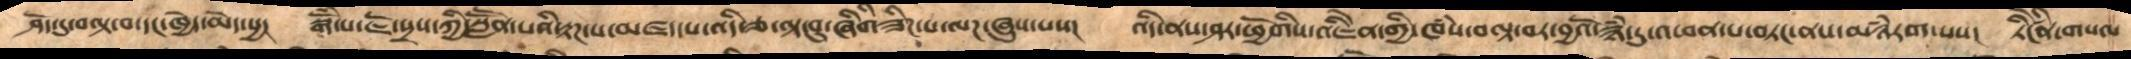ཤོད་དུ་ལྟ་བ་དང་ཁྱེད་མེད་སྱ།   སྒོཾ་པ་ཇོ་སྲས་ཀྱི་སླཽན་པའི་རྟཌ་པ་མཛད་པ་འདི་ཅ་ལྟ་བུ་ཞིགིཟིཌ་པ་ལཌ་ཞུས་པས།  འདི་ནས་ཤར་ཕྱོགིས་འཇིེན་གྱི་ཁཾས་བལྟ་བར་བྱའོ་སྙཾ་དུ་འཕན་པ་བཏང་ནས་མཉཾརག་པས།   ཏིངེཛིན་གསལ
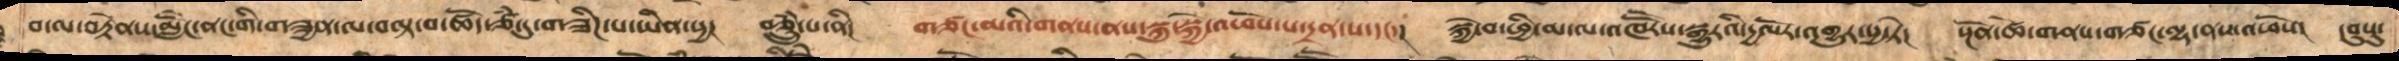བ་ལ་བརྟེནས་མློེང་ནང་གི་གཟནྱ་ལ་བལྟ་བ་ཚོད་ཙཾ་དུ་གཟིཌ་པ་ཡིན་སྱ།  བཅྲུཾ་པ་ནི།  གཙང་མའི་གནས་ནས་སྐུ་སྐྱེ་འཕོས་པ་དྲན་པ་དང་།   སྐྱེ་བ་ཕྱི་མ་ལ་འཁཽརས་སྒྱུརའི་དྱལོར་འགྱུར་སྱ་ཏེ།   སྔོན་ཚེ་གནས་གཙང་ལྷ་ནས་འཕོས།   དབུསུ་
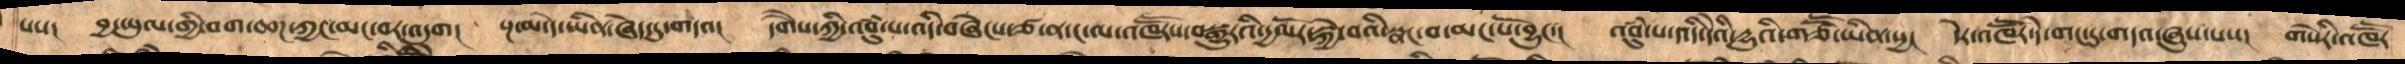པས།  བྱ་ཡུལ་གྱི་བག་ཆཌ་ཀྱང་མང་བར་འདུག།   སྔ་མ་དེ་ཡིན་ཞེད་དུ་གདའ།   དགཻས་ཀྱི་འབུཾ་པ་འདི་བཞེངས་ཙ་ན་ང་ལ་འཁཽརས་བསྒྱུརའི་དྱལོར་སྐྱེ་བའི་སྣང་བ་མང་པོ་བྱུང་།   འབུཾ་པ་འདི་དེའི་དྱུའི་གཙཽ་ཡིན་སྱ།   དེར་འཁཽར་དེ་གང་དུ་གདའ་ཞུས་པས།   གསེརི་འཁཽར
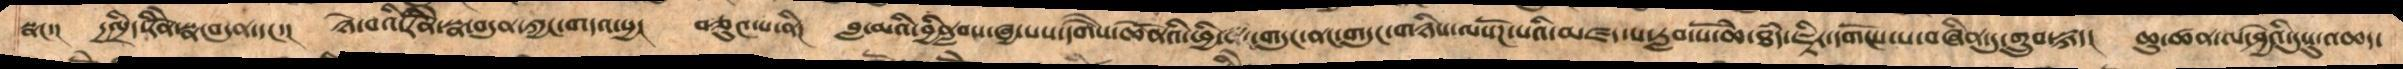སྣང་།   དྱལྲིད་རིནོེ་སྣ་བདུན་དང་།     ཉེ་བའི་རིནོེ་སྣ་བདུན་ཀྱང་གདའ་སྱ།   བཅུ༤་པ་ནི།    བླ་མའི་བྱིནབླས་ཞྱ་པས་དགཻས་ཆེནོའི་ཕྱི་གདུང་ནང་གདུང་གཉིས་ལསོཌ་པའི་མཛད་པ་རླབ་པོ་ཆེ་ཐཾད་ཇྟིར་དགོངས་པ་བཞིན་དུ་གྲུབ་སྐད།  ཆུ་ཚན་ལ་ཤྱེའི་དུསུ་འཆད་
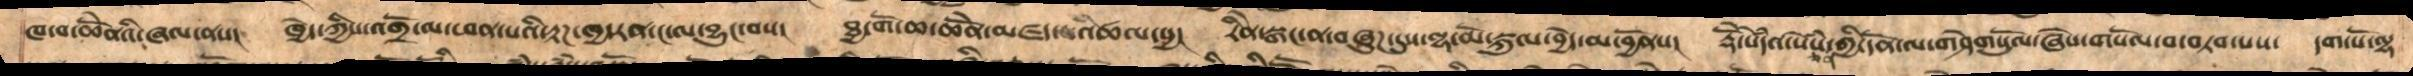ཁ་བ་ཆེནོའི་ཞལ་ནས། ཁྱེད་ཀྱིས་འགྲོ་ལ་ཕན་པའི་རྟཌ་ཁྱདརན་ང་ལ་བྱུང་བས།  ཐྱ་གོ་ཆ་ཆེནོ་མཛད་འཚལ་སྱ། རིེན་སྒང་ན་བཞུཌ་དུས་ལྷ་མོ་སྐུལ་བྱེད་མ་བྱོནས།  རྡོེ་སེཾདའ་སེཾས་ཅན་གྱི་དོན་ལ་གཤེགསོུལ་ཞེས་གསོལ་བ་བཏབ་པས། དག་པོ་ལྷ་
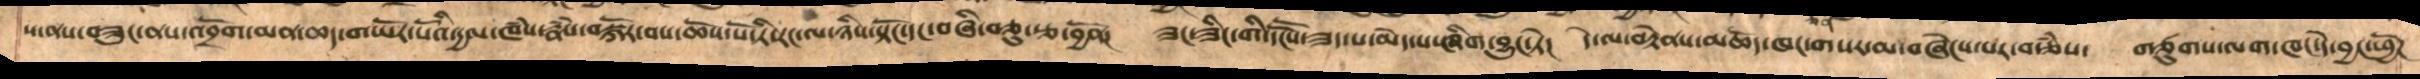ས་ནས་བཟུང་ནས་འབྲོག་མན་ཆད་གཡོར་པོའི་དྱལ་ཁཾས་རྣཾས་བསྐོར་བས་ཆོས་པོ་ཏི་རང་ལ་ཉིས་སྟོང་དང་བཞི་བཅུ་རྩ་བྱོན།   ཟང་ཟིང་གི་དངཽས་ཟད་པ་མེད་པ་ཞིག་བྱུང་ཏེ།   དེ་ལ་བརྟེནས་མཆོད་ཁང་གསར་མ་བཞེངས་བར་བརྩཾས།   གཙུགས་ལག་ཁང་དེ་བྱང་ཕྱོཌ
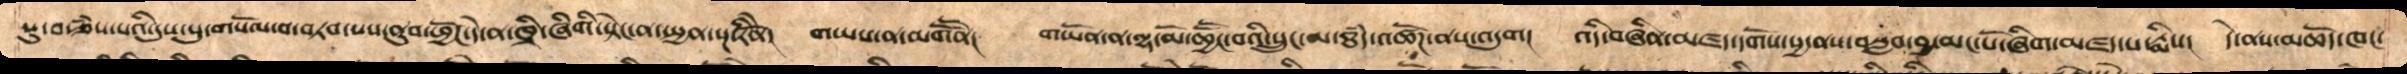སུ་བརྩཾས་པའི་དུས་སུ་གསོལ་བ་བཏབ་པས་ནུབ་ཕྱོཌ་དེ་ན་ཁྲི་ཞིགི་སྟེང་ན་སྤྱན་སྔ་རིནོེ།    གཡས་ན་མགཽན།    གཡོན་ན་ལྷ་མོ་ཆཽངྱ་བའི་སྲུང་མ་ཐཾད་འཚོཌ་ནས་འདུག།   འདི་བཞིན་མཛད་དགོས་སྱ་ནས་བསླབ་བྱ་མང་པོ་ཞིག་མཛད་པ་རྨིས།    དེ་ནས་མཆོད་ཁང་
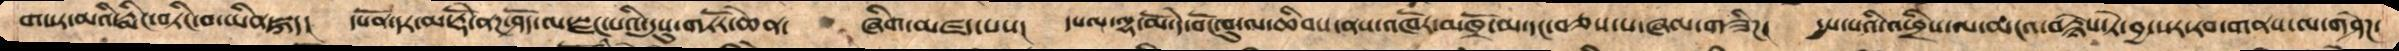གསར་མའི་རྨིང་བཏིང་བ་ཡིན་སྐད།  དཔོན་དར་མ་རྡོེ་ནཌ་ཤོད་སླང་པའི་དུསུ་གཏོར་ཆེན་   ཞིག་མཛད་པས།    དཔལ་ལྷ་མོ་དེ་བོང་བུ་ལ་ཆིབས་ནས་འཁོར་མཁྲོ་མ་དང་བཅས་པ་ཞལ་གཟིཌ་    དྱས་པའི་འཕྲིས་ལ་མངའ་བརྙེས་ཏེ་བྱ་སར་རབ་གནས་ལ་གཤེཌ་
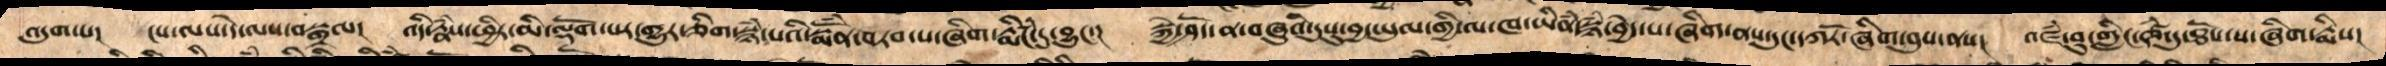འདུག་པ།   ངས་ལས་དེ་ལས་བསྒྲལ།   འདི་རྣཾས་ཕྱིར་མི་ལྡོག་པར་གྱུར་ཅིག་སྙཾ་པའི་སྨོནཾ་བཏབ་པ་ཞིག་རྨིཾང་དུ་བྱུང་།   སྐྱེ་ཤོད་ན་བཞུའི་དུསུ་བྱང་ཡུལ་གྱི་ལ་ཁ་ཡིནཾ་སྙཾ་བྱེད་པ་ཞིག་ནས་དུང་དཀརོ་ཞིག་བུས་ནས། འཛཾ་བུ་གླིང་ཙཾ་དུ་ཐོས་པ་ཞིག་རྨིས།
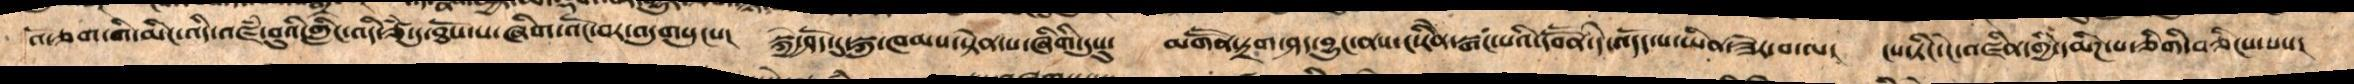འོ་ཅག་གི་མིང་འདི་འཛཾ་བུའི་གླིང་འདི་ཙཾ་དུ་ཐོས་པ་ཞིག་འོང་བར་འདུགསུངས།   སྐྱེ་ཤོད་དུ་སྐུ་ཁམས་སྟེན་པ་ཞིགི་དུསུ་    མགཽན་ཏྲག་ཤད་བྱུང་ནས་ང་རིནེ་སྒང་པའི་དབཽན་དེ་འདོད་པ་ཡིན་ཟེར་བ་ལ།   ངས་ཏིང་ངེ་འཛིན་གྱི་དམིཌ་པ་ཅིགི་བཅིངས་པས་
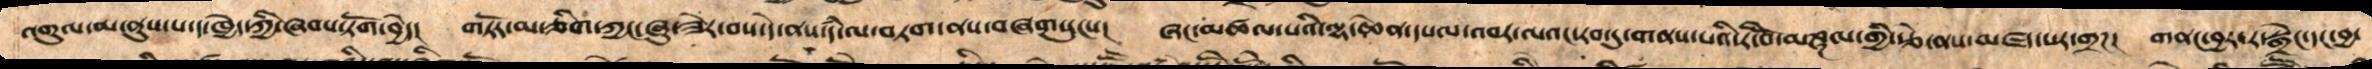འགུལ་མ་ནུས་པ་ད་ཁྱེད་ཀྱི་ཞབས་ཏོག་བྱེད།   གཏོར་མ་ཅིག་ཀྱང་ཞུ་ཟེར་བས་དེ་ནས་དཾ་ལ་བཏག་ནས་བཞགསུངས།   ཞང་མཚལ་པའི་ལྷ་ཆེན་དཔལ་འབར་ལའང་རབ་དུ་གནས་པའི་རི་བོ་མཎྜལ་གྱི་རྩེ་ནས་མཛད་པར་གྲཌ།  གནང་བྱར་ར་སྒྲེང་དང་བྱ་
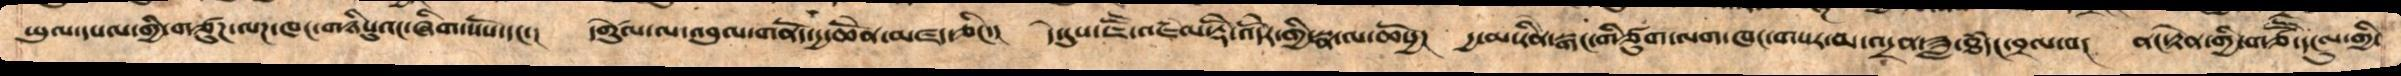ཡུལ་དཔལ་གྱི་གཙུག་ལཌ་ཁང་གཉིསུའང་ཞིག་སོས་དང་།      དགེཚུལ་ལ་འབུལ་གནོད་དྱ་ཆེནོ་མཛད་ཅིང་།   དེ་དུས་ཇཽ་འཇཾལ་རྡོེ་འོདེར་གྱི་སྣ་ལ་ཆོསྱ།    དྱ་མ་རིནེ་སྒང་གིཙུག་ལག་ཁང་གསར་མ་འདྲན་ཟླ་ཐཾདང་བྲལ་བ།   ནང་རྟེན་གྱི་གཙཽ་དངུལ་གྱི་
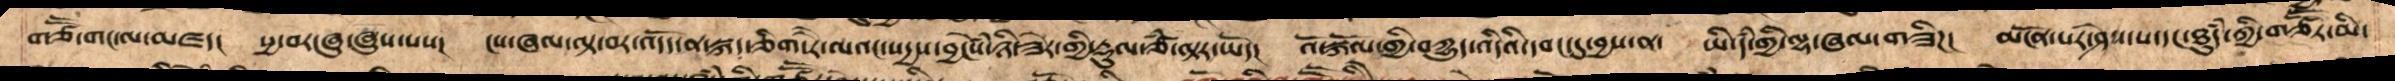གཙཽ་གང་ལ་མཛད།   སྱ་བར་ཞུ་ཞུས་པས།   ངས་ཞལ་ལྟ་བར་འདོད་ན་སྐད་ཅིག་རཻ་ལའང་སདྱས་་བྱངེསཾ་ཉི་ཟེར་གྱི་རྡུལ་ཙཾ་ལྟར་ཡོད།   འོ་སྐོལ་གྱི་བཀྱུད་འདིའི་དབང་དུ་བྱས་ན།  ཡི་དཾ་གྱི་ལྷ་ཞལ་གཟིཌ།  མངོན་པར་ཤེས་པ་དང་ཐུདཾ་གྱི་གཙཽར་མི་
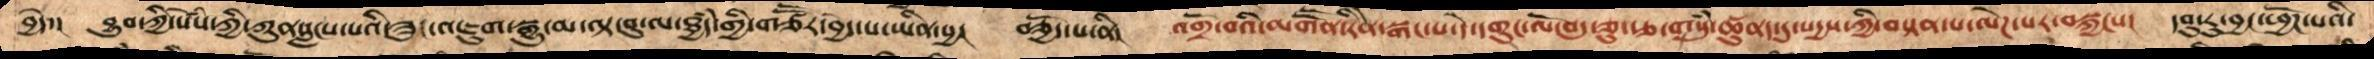བྱེད་།   བྱུབ་ཀྱི་སེསཾ་ཀྱི་ཀུནསླངས་པའི་ཟུང་འཇུག་སྒྱུ་མ་ལྟ་བུ་ལ་ཐྱཾད་གྱི་གཙཽར་བྱེད་པ་ཡིན་སྱ།  བཅྱོད་པ་ནི།  འགྲོ་བའི་མགཽན་རིནེ་སྒང་པ་དེ་དགུང་ལོ་བདུ་ཅུ་རྩ་གསུཾ་ཚུནད་དུ་སདྱས་ཀྱི་བསྟན་པ་ལེཌ་པར་བསྐྱངས།   དབུ་རུ་བྱང་ཕྱོཌ་པའི་
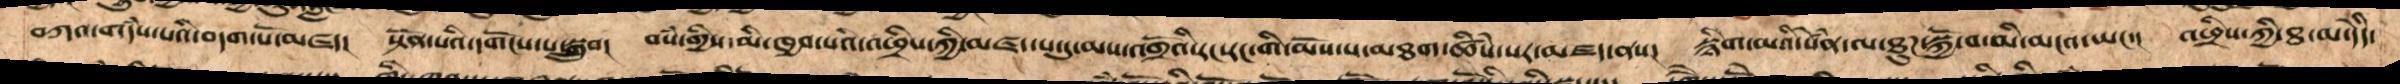བཀའ་གདཾས་པའི་བདག་པོ་མཛད།  སྟོན་པའི་དགོངས་པ་སྒྲུབ།  བསཾ་གྱིས་མི་ཁྱབ་པའི་འཕྲིས་ཀྱི་མཛད་པ་དུ་མས་འགྲོའི་རང་རང་གི་མོས་པ་མཐག་ཚིཾས་པར་མཛད་ནས།  སྙིག་མའི་སེནཾ་ལ་ཐུཌ་སྐྱོ་བ་མི་མངའ་ཡང་།   འཕྲིས་ཀྱི་ཐ་མ་དེདི་
